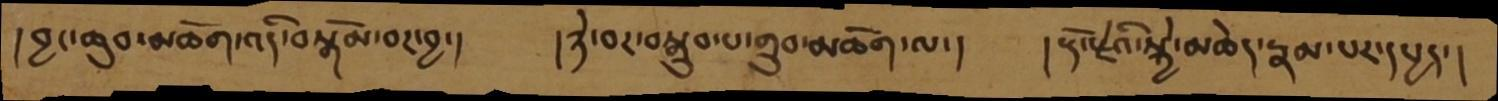།བྱང་ཆུབ་མཆོག་འདི་བསྒོམ་བར་བྱ་།   །ཉེ་བར་བསྒྲུབ་པ་གྲུབ་མཆོག་ལ་།   །རྡོ་རྗེའི་སྐྱེ་མཆེད་རྣམ་པར་དཔྱད་།
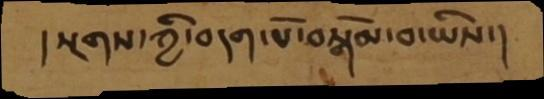།སྔགས་ཀྱི་བདག་པོ་བསྒོམ་བ་ཡིས་།
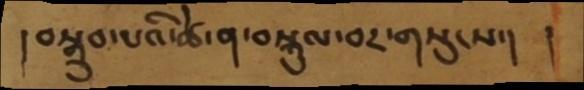།བསྒྲུབ་པའི་ཚེ་ན་བསྐུལ་བར་གསུངས་།    ࿑
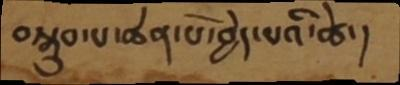བསྒྲུབ་པ་ཆེན་པོ་བྱེད་པའི་ཚེ་།
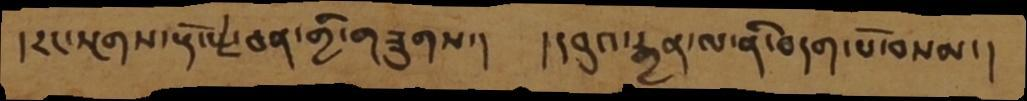།རང་སྔགས་རྡོ་རྗེ་ཅན་གྱི་གཟུགས་།   །དབུའ་རྒྱན་ལ་ནི་བདག་པོ་བསམ་།
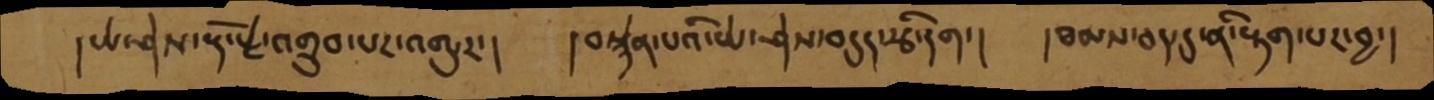།ཡེ་ཤེས་རྡོ་རྗེ་འགྲུབ་པར་འགྱུར་།   །བསྙེན་པའི་ཡེ་ཤེས་བདུད་རྩི་དག་།   །ཐམས་ཅད་དུ་ནི་རྟག་པར་བྱ་།
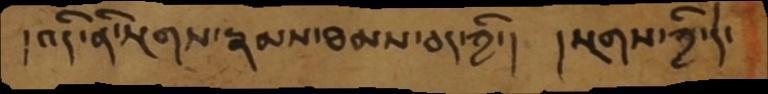།འདི་ནི་སྔགས་རྣམས་ཐམས་ཅད་ཀྱི་།  །སྔགས་ཀྱི་དེ་
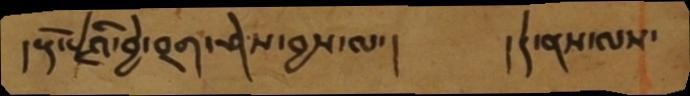།རྡོ་རྗེའི་བྱེ་བྲག་ཤེས་བྱས་ལ་།   །དེ་ནས་ལས་
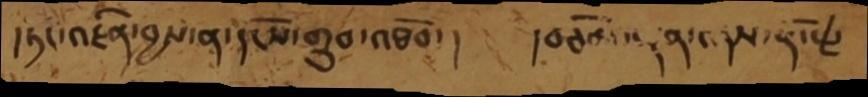།ཏང་འཛིན་བྱས་ན་དངོས་གྲུབ་འཐོབ་།   །བཅོམ་ལྡན་འདས་རྡོ་རྗེ
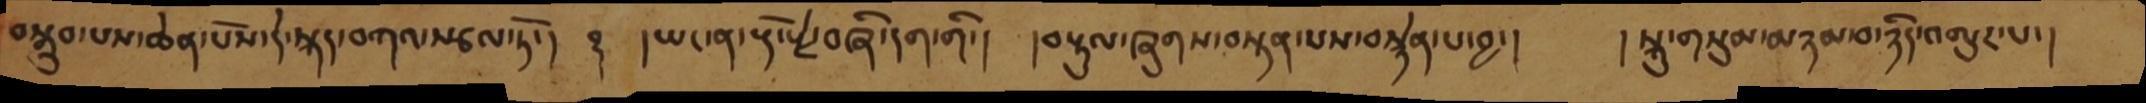བསྒྲུབ་པས་ཆེན་པོས་དེ་སྐད་བཀའ་སྩལ་ཏོ་།  ࿑  །ཡང་ན་རྡོ་རྗེ་བཞི་དག་གི་།   །བརྟུལ་ཞུགས་བསྟན་པས་བསྙེན་པ་བྱ་།  །སྐུ་གསུམ་མཉམ་བ་ཉིད་འགྱུར་པ་།
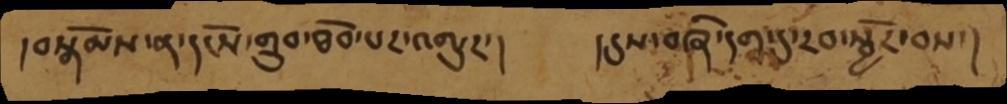།བསྒོམས་ན་དངོས་གྲུབ་ཐོབ་པར་འགྱུར་།    །དུས་བཞི་དག་དུ་རབ་སྦྱོར་བས་།
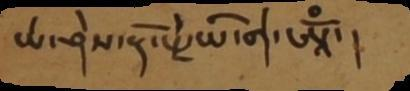ཡེ་ཤེས་རྡོ་རྗེ་ཡི་གེ་ཨཱོྃ་།
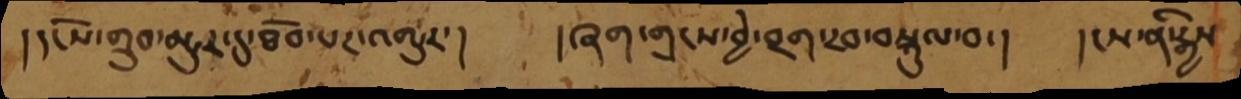།དངོས་གྲུབ་མྱུར་དུ་ཐོབ་པར་འགྱུར་།   །ཞག་གྲངས་བྱེ་བྲག་རབ་བསྐུལ་བ་།   །ངས་ནི་རྒྱས
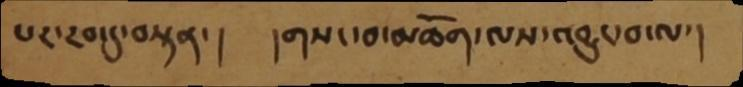པར་རབ་དུ་བསྟན་།   །གསང་བ་མཆོག་ལས་འབྱུང་བ་ལ་།
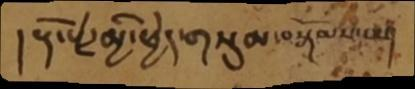།རྡོ་རྗེ་མྱི་ཕྱེད་གསུམ་བསྒོམས་པས་།
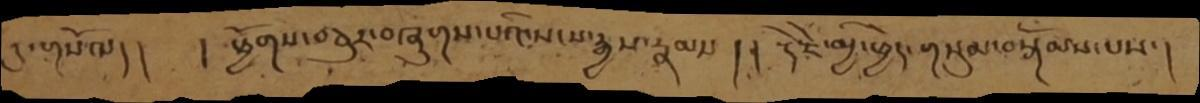དུ་གསོལད།  །ཕྱོགས་བཅུར་བཞུགས་པའི་སངས་རྒྱས་རྣམས་། །རྡོ་རྗེ་མྱི་ཕྱེད་གསུམ་བསྒོམས་པས་།
